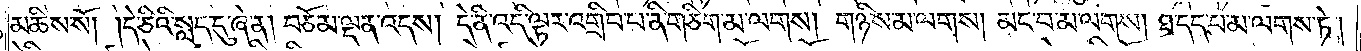མཆིས་སོ། །དེ་ཅིའི་སླད་དུ་ཞེ་ན། བཅོམ་ལྡན་འདས། དེ་ནི་འདི་ལྟར་འགྲིབ་པ་ནི་གཅིག་མ་ལགས། གཉིས་མ་ལགས། མང་བ་མ་ལགས། ཐ་དད་པ་མ་ལགས་ཏེ།
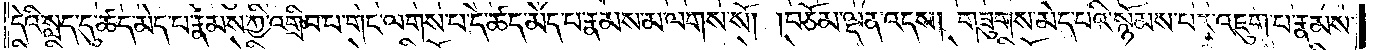དེའི་སླད་དུ་ཚད་མེད་པ་རྣམས་ཀྱི་འགྲིབ་པ་གང་ལགས་པ་དེ་ཚད་མེད་པ་རྣམས་མ་ལགས་སོ། །བཅོམ་ལྡན་འདས། གཟུགས་མེད་པའི་སྙོམས་པར་འཇུག་པ་རྣམས་
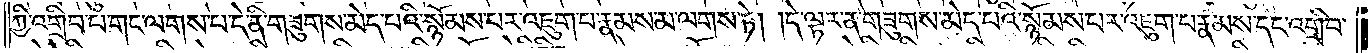ཀྱི་འགྲིབ་པ་གང་ལགས་པ་དེ་ནི་གཟུགས་མེད་པའི་སྙོམས་པར་འཇུག་པ་རྣམས་མ་ལགས་ཏེ། དེ་ལྟར་ན་གཟུགས་མེད་པའི་སྙོམས་པར་འཇུག་པ་རྣམས་དང་འགྲིབ་
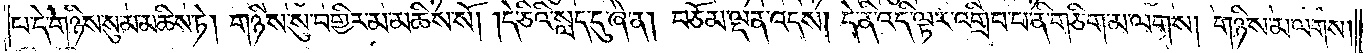པ་དེ་གཉིས་སུ་མ་མཆིས་ཏེ། གཉིས་སུ་བགྱིར་མ་མཆིས་སོ། །དེ་ཅིའི་སླད་དུ་ཞེ་ན། བཅོམ་ལྡན་འདས། དེ་ནི་འདི་ལྟར་འགྲིབ་པ་ནི་གཅིག་མ་ལགས། གཉིས་མ་ལགས།
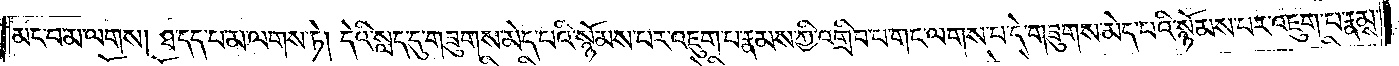མང་བ་མ་ལགས། ཐ་དད་པ་མ་ལགས་ཏེ། དེའི་སླད་དུ་གཟུགས་མེད་པའི་སྙོམས་པར་འཇུག་པ་རྣམས་ཀྱི་འགྲིབ་པ་གང་ལགས་པ་དེ་གཟུགས་མེད་པའི་སྙོམས་པར་འཇུག་པ་རྣམས་
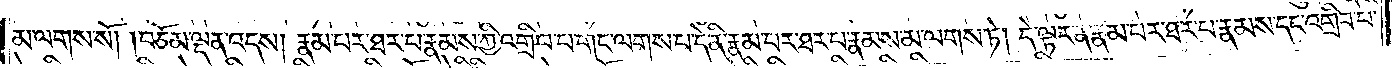མ་ལགས་སོ། །བཅོམ་ལྡན་འདས། རྣམ་པར་ཐར་པ་རྣམས་ཀྱི་འགྲིབ་པ་གང་ལགས་པ་དེ་ནི་རྣམ་པར་ཐར་པ་རྣམས་མ་ལགས་ཏེ། དེ་ལྟར་ན་རྣམ་པར་ཐར་པ་རྣམས་དང་འགྲིབ་པ་
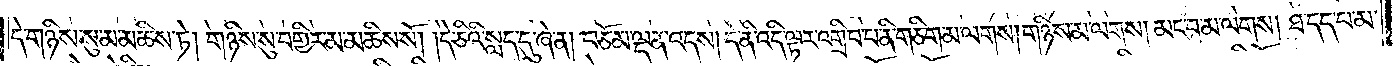དེ་གཉིས་སུ་མ་མཆིས་ཏེ། གཉིས་སུ་བགྱིར་མ་མཆིས་སོ། །དེ་ཅིའི་སླད་དུ་ཞེ་ན། བཅོམ་ལྡན་འདས། དེ་ནི་འདི་ལྟར་འགྲིབ་པ་ནི་གཅིག་མ་ལགས། གཉིས་མ་ལགས། མང་བ་མ་ལགས། ཐ་དད་པ་མ་
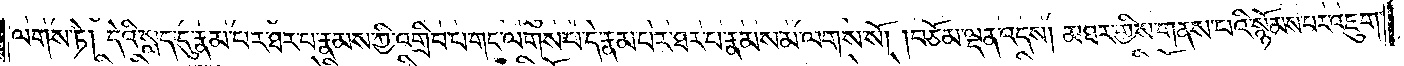ལགས་ཏེ། དེའི་སླད་དུ་རྣམ་པར་ཐར་པ་རྣམས་ཀྱི་འགྲིབ་པ་གང་ལགས་པ་དེ་རྣམ་པར་ཐར་པ་རྣམས་མ་ལགས་སོ། །བཅོམ་ལྡན་འདས། མཐར་གྱིས་གནས་པའི་སྙོམས་པར་འཇུག་
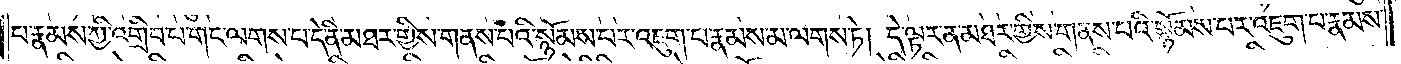པ་རྣམས་ཀྱི་འགྲིབ་པ་གང་ལགས་པ་དེ་ནི་མཐར་གྱིས་གནས་པའི་སྙོམས་པར་འཇུག་པ་རྣམས་མ་ལགས་ཏེ། དེ་ལྟར་ན་མཐར་གྱིས་གནས་པའི་སྙོམས་པར་འཇུག་པ་རྣམས་
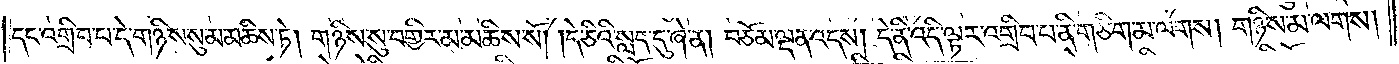དང་འགྲིབ་པ་དེ་གཉིས་སུ་མ་མཆིས་ཏེ། གཉིས་སུ་བགྱིར་མ་མཆིས་སོ། །དེ་ཅིའི་སླད་དུ་ཞེ་ན། བཅོམ་ལྡན་འདས། དེ་ནི་འདི་ལྟར་འགྲིབ་པ་ནི་གཅིག་མ་ལགས། གཉིས་མ་ལགས།
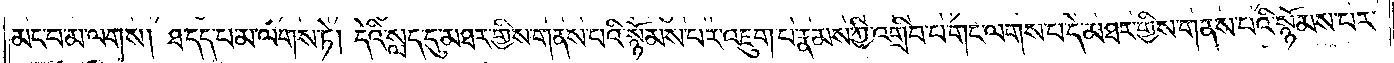མང་བ་མ་ལགས། ཐ་དད་པ་མ་ལགས་ཏེ། དེའི་སླད་དུ་མཐར་གྱིས་གནས་པའི་སྙོམས་པར་འཇུག་པ་རྣམས་ཀྱི་འགྲིབ་པ་གང་ལགས་པ་དེ་མཐར་གྱིས་གནས་པའི་སྙོམས་པར་
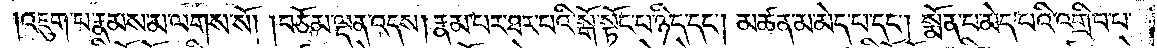འཇུག་པ་རྣམས་མ་ལགས་སོ། །བཅོམ་ལྡན་འདས། རྣམ་པར་ཐར་པའི་སྒོ་སྟོང་པ་ཉིད་དང༌། མཚན་མ་མེད་པ་དང༌། སྨོན་པ་མེད་པའི་འགྲིབ་པ་
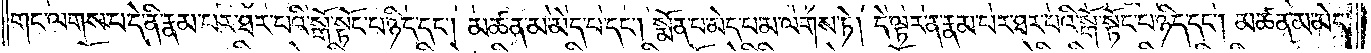གང་ལགས་པ་དེ་ནི་རྣམ་པར་ཐར་པའི་སྒོ་སྟོང་པ་ཉིད་དང༌། མཚན་མ་མེད་པ་དང༌། སྨོན་པ་མེད་པ་མ་ལགས་ཏེ། དེ་ལྟར་ན་རྣམ་པར་ཐར་པའི་སྒོ་སྟོང་པ་ཉིད་དང༌། མཚན་མ་མེད་
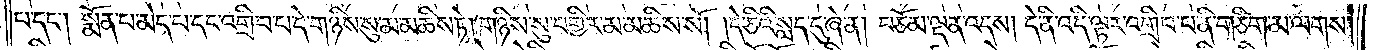པ་དང༌། སྨོན་པ་མེད་པ་དང་འགྲིབ་པ་དེ་གཉིས་སུ་མ་མཆིས་ཏེ། གཉིས་སུ་བགྱིར་མ་མཆིས་སོ། །དེ་ཅིའི་སླད་དུ་ཞེ་ན། བཅོམ་ལྡན་འདས། དེ་ནི་འདི་ལྟར་འགྲིབ་པ་ནི་གཅིག་མ་ལགས་
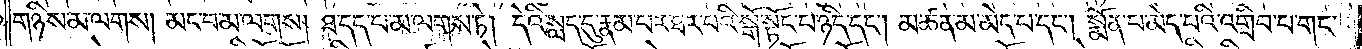གཉིས་མ་ལགས། མང་བ་མ་ལགས། ཐ་དད་པ་མ་ལགས་ཏེ། དེའི་སླད་དུ་རྣམ་པར་ཐར་པའི་སྒོ་སྟོང་པ་ཉིད་དང༌། མཚན་མ་མེད་པ་དང༌། སྨོན་པ་མེད་པའི་འགྲིབ་པ་གང་
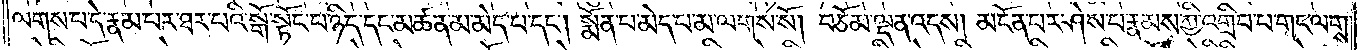ལགས་པ་དེ་རྣམ་པར་ཐར་པའི་སྒོ་སྟོང་པ་ཉིད་དང་མཚན་མ་མེད་པ་དང༌། སྨོན་པ་མེད་པ་མ་ལགས་སོ། །བཅོམ་ལྡན་འདས། མངོན་པར་ཤེས་པ་རྣམས་ཀྱི་འགྲིབ་པ་གང་ལགས་
